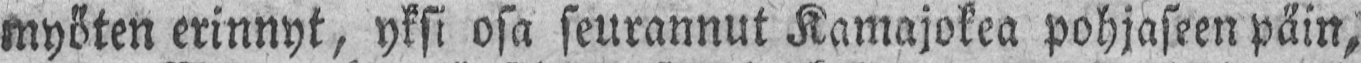myöten erinnyt, yksi osa seurannut Kamajokea pohjaseen päin,
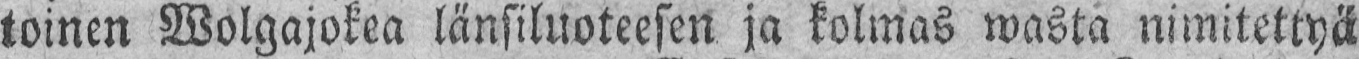toinen Wolgajokea länsiluoteesen ja kolmas wasta nimitettyä
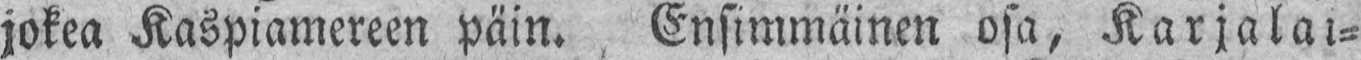jokea Kaspiamereen päin. Ensimmäinen osa, Karjalai-
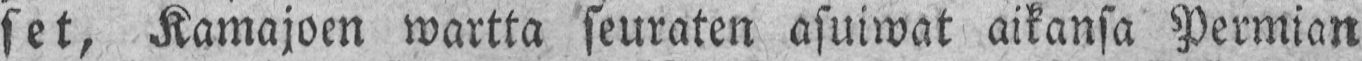set, Kamajoen wartta seuraten asuiwat aikansa Permian
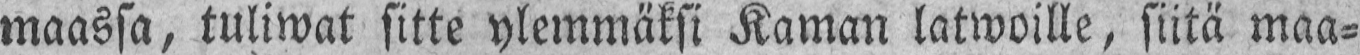maassa, tuliwat sitte ylemmäksi Kaman latwoille, siitä maa-
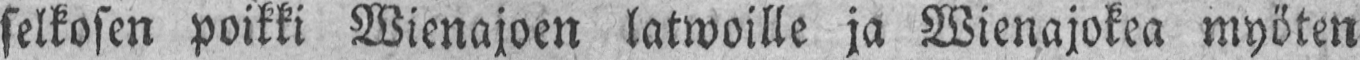selkosen poikki Wienajoen latwoille ja Wienajokea myöten
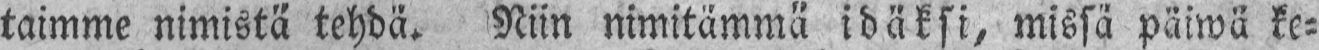taimme nimistä tehdä. Niin nimitämmä idäksi, missä päiwä ke-
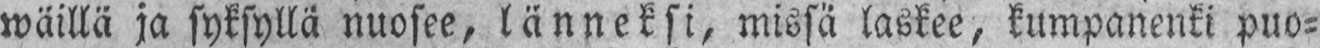wäillä ja syksyllä nuosee, länneksi, missä laskee, kumpanenki puo-
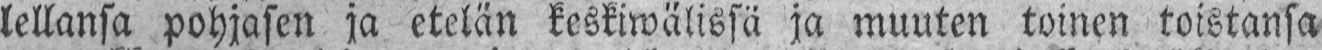lellansa pohjasen ja etelän keskiwälissä ja muuten toinen toistansa
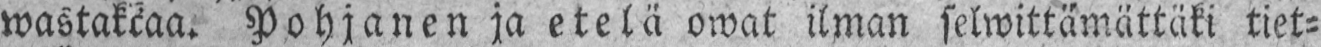wastakkaa. Pohjanen ja etelä owat ilman selwittämättäki tiet-
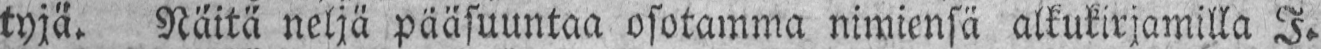tyjä. Näitä neljä pääsuuntaa osotamma nimiensä alkukirjamilla I.
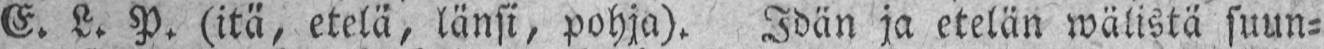E. L. P. (itä, etelä, länsi, pohja). Idän ja etelän wälistä suun-
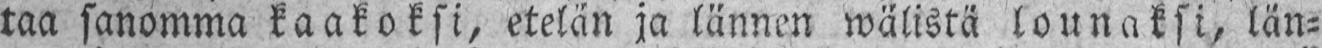taa sanomma kaakoksi, etelän ja lännen wälistä lounaksi, län-
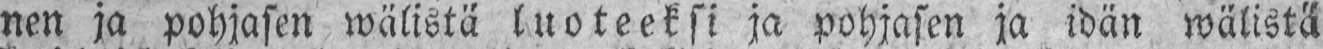nen ja pohjasen wälistä luoteeksi ja pohjasen ja idän wälistä
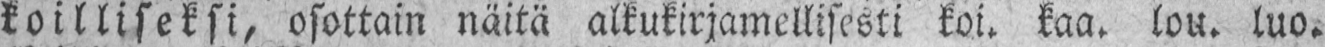koilliseksi, osottain näitä alkukirjamellisesti koi. kaa. lou. luo.
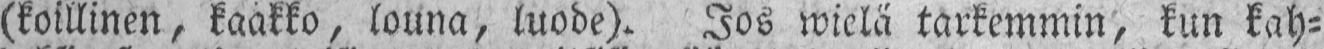(koillinen, kaakko , louna, luode). Jos wielä tarkemmin, kun kah-
